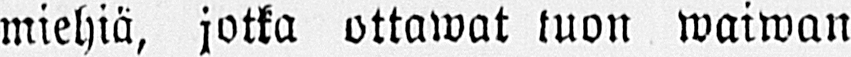miehiä, jotka ottawat tuon waiwan
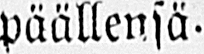päällensä.
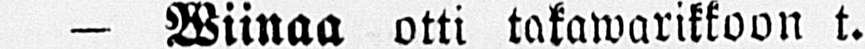- Wiinaa otti takawarikkoon t.
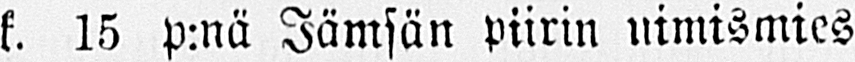k.15 p:nä Jämsän piirin nimismies
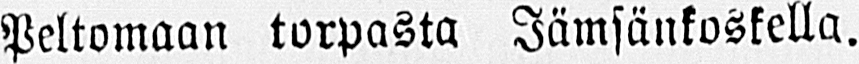Peltomaan torpasta Jämsänkoskella.
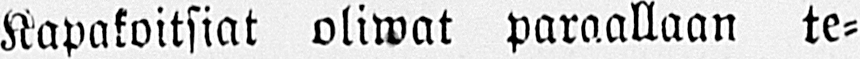Kapakoitsiat oliwat paraallaan te-
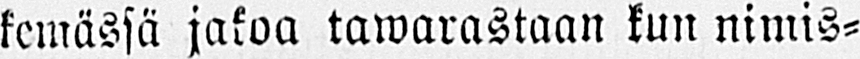kemässä jakoa tawarastaan kun nimis-
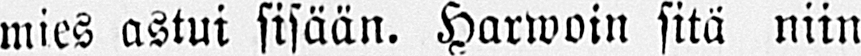mies astui sisään. Harwoin sitä niin
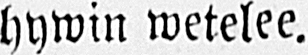hywin wetelee.
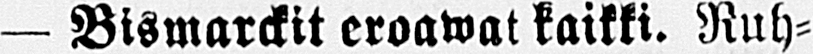— Bismarckit eroawat kaikki. Ruh-
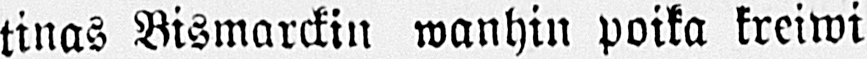tinas Bismarckin wanhin poika kreiwi
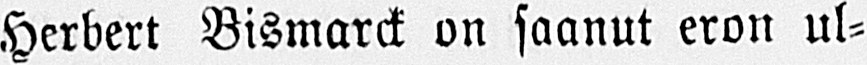Herbert Bismarck on saanut eron ul-
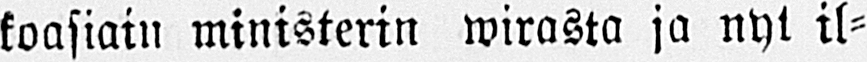koasiain ministerin wirasta ja nyt il-
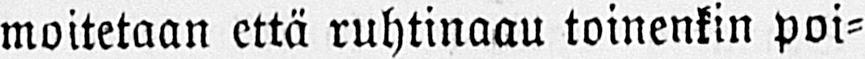moitetaan että ruhtinaau toinenkin poi-
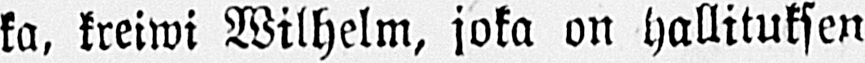ka, kreiwi Wilhelm, joka on hallituksen
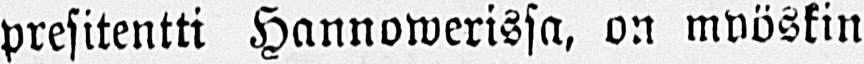presitentti Hannowerissa, on myöskin
